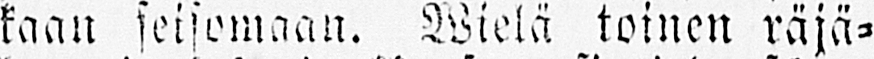kaan seisomaan. Wielä toinen räjä-
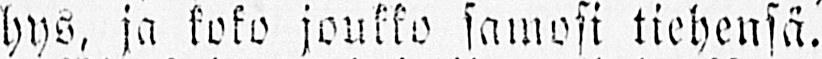hys, ja koko joukko samosi tiehensä.
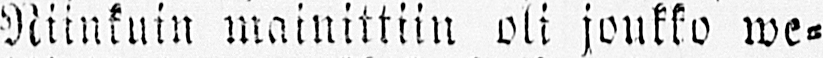Niinkuin mainittiin oli joukko we-
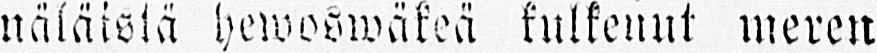näläistä hewoswäkeä kulkenut meren
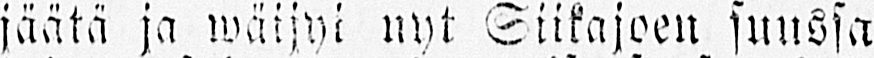jäätä ja wäijyi nyt Siikajoen suussa
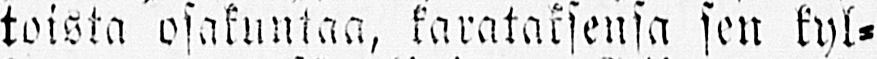toista osakuntaa, tarataksensa sen kyl-
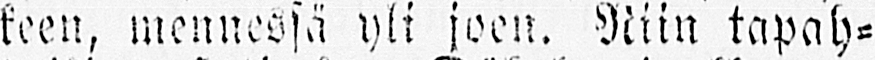keen, mennessä yli joen. Niin tapah-
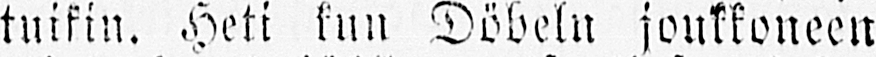tuikin. Heti kun Döbeln joukkoneen
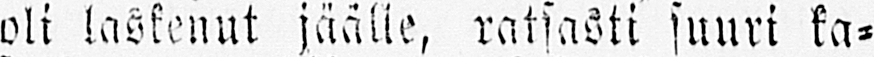oli laskenut jäälle, ratsasti suuri ka-
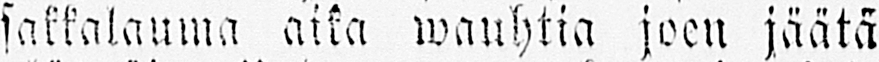sakkalauma aika wauhtia joen jäätä
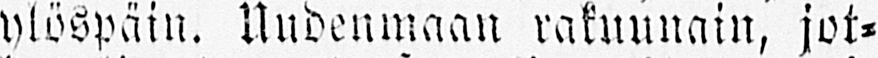ylöspäin. Uudenmaan rakuunain, jot-
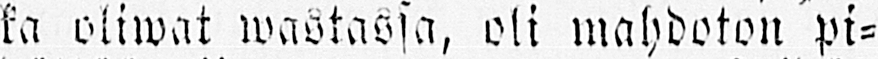ka oliwat wastassa, oli mahdoton pi-
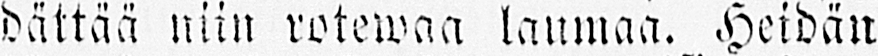dättää niin rotewaa laumaa. Heidän
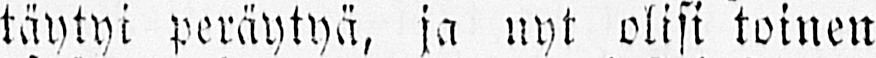täytyi peräytyä, ja nyt olisi toinen
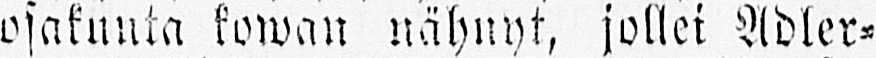osakunta kowan nähnyt, jollei Adler-
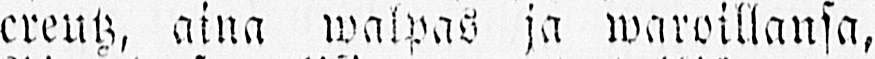creuz, aina walpas ja waroillansa,
